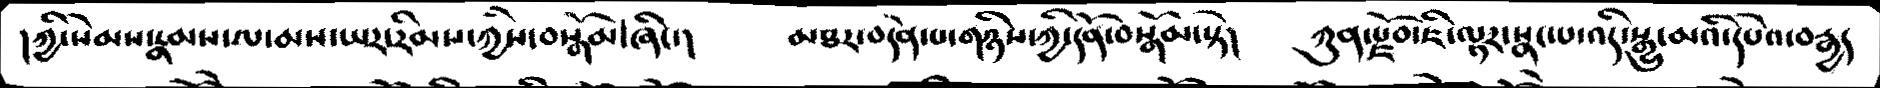།ཀྱི་སེམས་རྣམས་ལ་མས་ཡར་རིམས་ཀྱིས་བསྒོམ་ཞིང་།   མཐར་བདེན་པ་གཉིས་ཀྱི་དོན་བསྒོམ་སྟེ།  ཀུན་རྫོབ་ཇི་ལྟར་སྣང་པ་འདི་སྒྱུ་མའི་དཔེའ་བརྒྱད
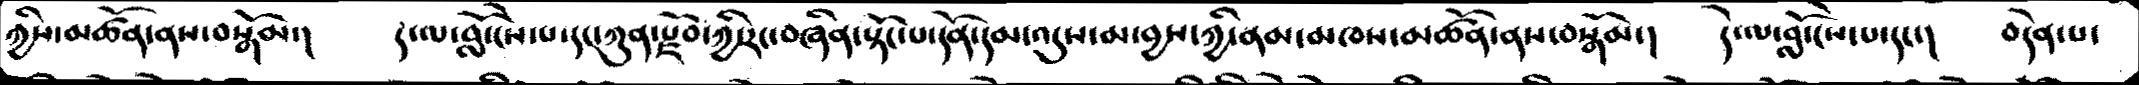ཀྱིས་མཚོན་ནས་བསྒོམ་།  དེ་ལ་བློ་ངེས་པ་དང་ཀུན་རྫོབ་ཀྱི་རང་བཞིན་སྟོང་པ་དོན་དམ་འདུས་མ་བྱས་ཀྱི་ནམ་མཁས་མཚོན་ནས་བསྒོམ་།   དེ་ལ་བློ་ངེས་པ་དང་།   བདེན་པ་
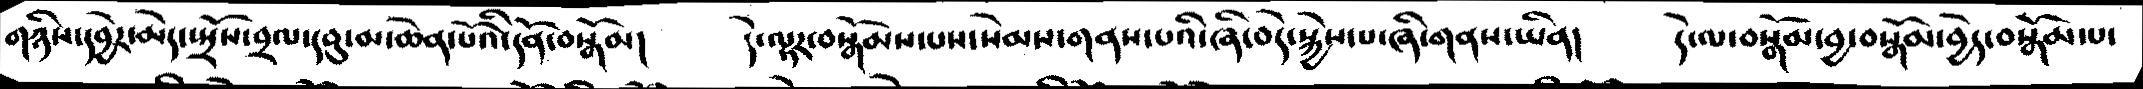གཉིས་དབྱེར་མེད་སྤྲོས་བྲལ་དབུ་མ་ཆེན་པོའི་དོན་བསྒོམ།   དེ་ལྟར་བསྒོམས་པས་སེམས་གནས་པའི་ཞི་བདེ་སྐྱེས་པ་ཞི་གནས་ཡིན།   དེ་ལ་བསྒོམ་བྱ་བསྒོམ་བྱེད་བསྒོམ་པ་
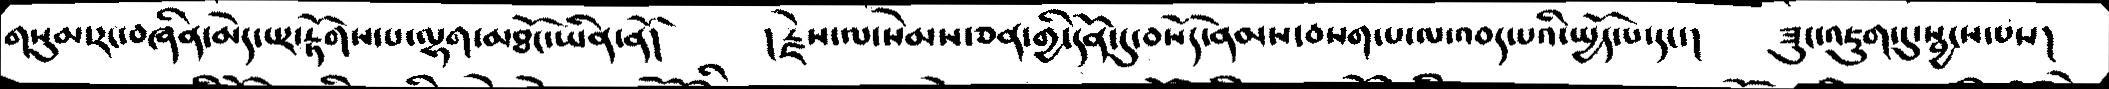གསུམ་རང་བཞིན་མེད་པར་རྟོགས་པ་ལྷག་མཐོང་ཡིན་ནོ།   །རྗེས་ལ་སེམས་ཅན་གྱི་དོན་དུ་བསོད་ནམས་བསགས་པ་ལ་འབད་པའི་སྤྱོད་པ་དང་།   ཟུང་འཇུག་དུ་སྦྱངས་པས།
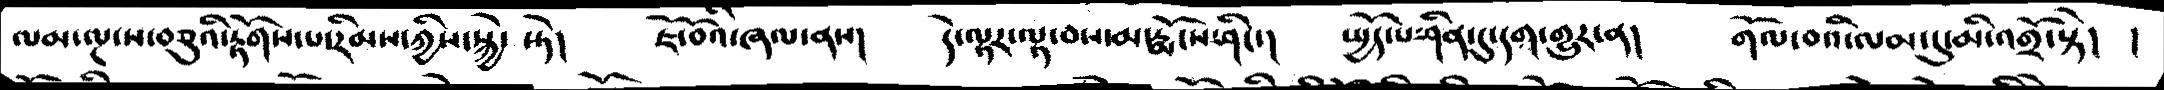ལམ་ལྔ་ས་བཅུའི་རྟོགས་པ་རིམས་ཀྱིས་སྐྱེ་ སྟེ།   ཇོ་བོའི་ཞལ་ནས།   དེ་ལྟར་ལྟ་བས་མ་རྨོངས་ཤིང་།   སྤྱོད་པ་ཤིན་དུ་དག་གྱུར་ན།   གོལ་བའི་ལམ་དུ་མི་འགྲོ་སྟེ།   །
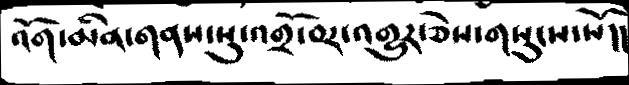འོག་མིན་གནས་སུ་འགྲོ་བར་འགྱུར་ཅེས་གསུངས་སོ།།
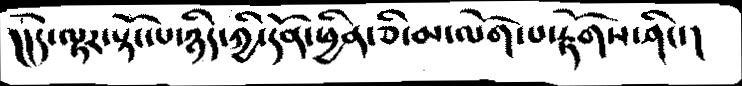།།དེ་ལྟར་སྟོང་པ་ཉིད་ཀྱི་དོན་ཕྱིན་ཅི་མ་ལོག་པ་རྟོགས་ཤིང་།
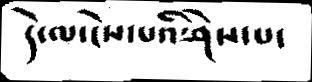དེ་ལ་ངེས་པའི་ཤེས་པ་
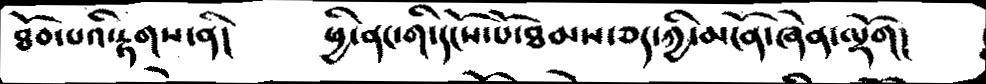ཐོབ་པའི་རྟགས་ནི།  ཕྱི་ནང་གི་དངོས་པོ་ཐམས་ཅད་ཀྱི་མངོན་ཞེན་ལྡོག།
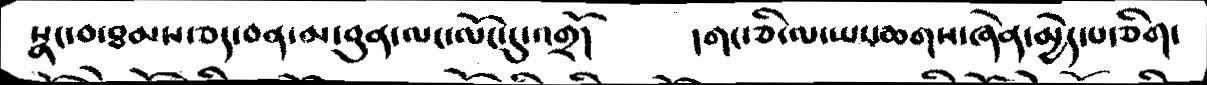སྣང་བ་ཐམས་ཅད་བན་མ་བུན་་ལང་ལོང་དུ་འགྲོ།   །གང་ཅི་ལ་ཡང་ཆགས་ཞེན་མྱེད་པ་ཅིག་
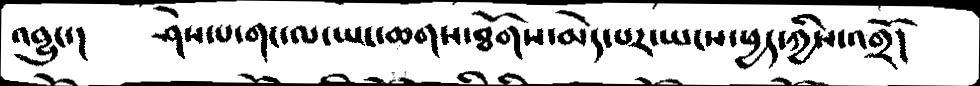འབྱུང་།    ཤེས་པ་གང་ལ་ཡང་ཆགས་ཐོགས་མེད་པར་ཡངས་ཕྱད་ཀྱིས་འགྲོ།
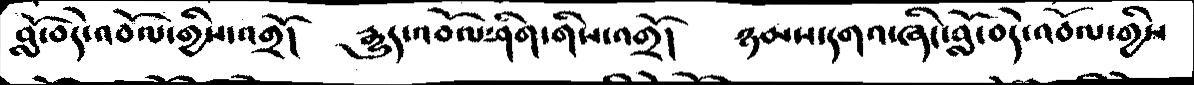བློ་བདེ་འབོལ་གྱིས་འགྲོ།  རྒྱུད་འབོལ་ཤིག་གིས་འགྲོ།   ཉམས་དགའ་ཞིང་བློ་བདེ་འབོལ་གྱིས
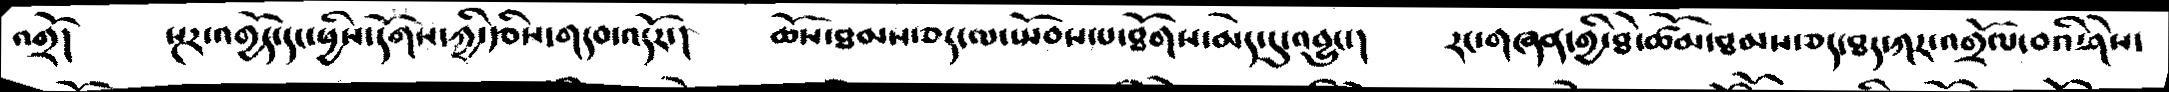འགྲོ།   སྔར་འགྱོད་དང་ཕྱིས་དོགས་ཀྱི་རྩིས་གདབ་འདོར་།   ཆོས་ཐམས་ཅད་ལ་སྤོབས་པ་ཐོགས་མེད་དུ་འབྱུང་།    རང་བཞིན་གྱི་ཐེ་ཚོམ་ཐམས་ཅད་ཐད་ཀར་འགྲོལ་བའི་ཤེས་
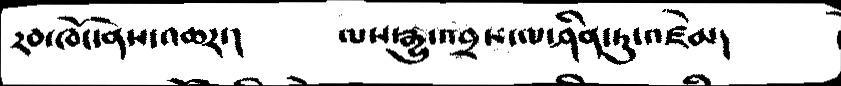རབ་ཁོང་ནས་འཆར་།    ལས་རྒྱུ་འབྲས་ལ་ཤིན་ཏུ་འཛེམ།
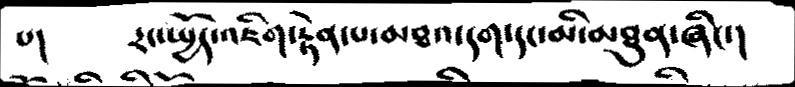པ།   རང་སྤྱོད་འཇིག་རྟེན་པ་མཐའ་དག་དང་མི་མཐུན་ཞིང་།
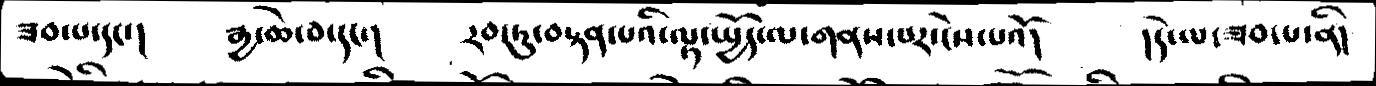ཟབ་པ་དང་།    རྒྱ་ཆེ་བ་དང་།   རབ་ཏུ་བསྟན་པའི་ལྟ་སྤྱོད་ལ་གནས་པར་ངེས་པའོ།   །དེ་ལ་ཟབ་པ་ནི།
